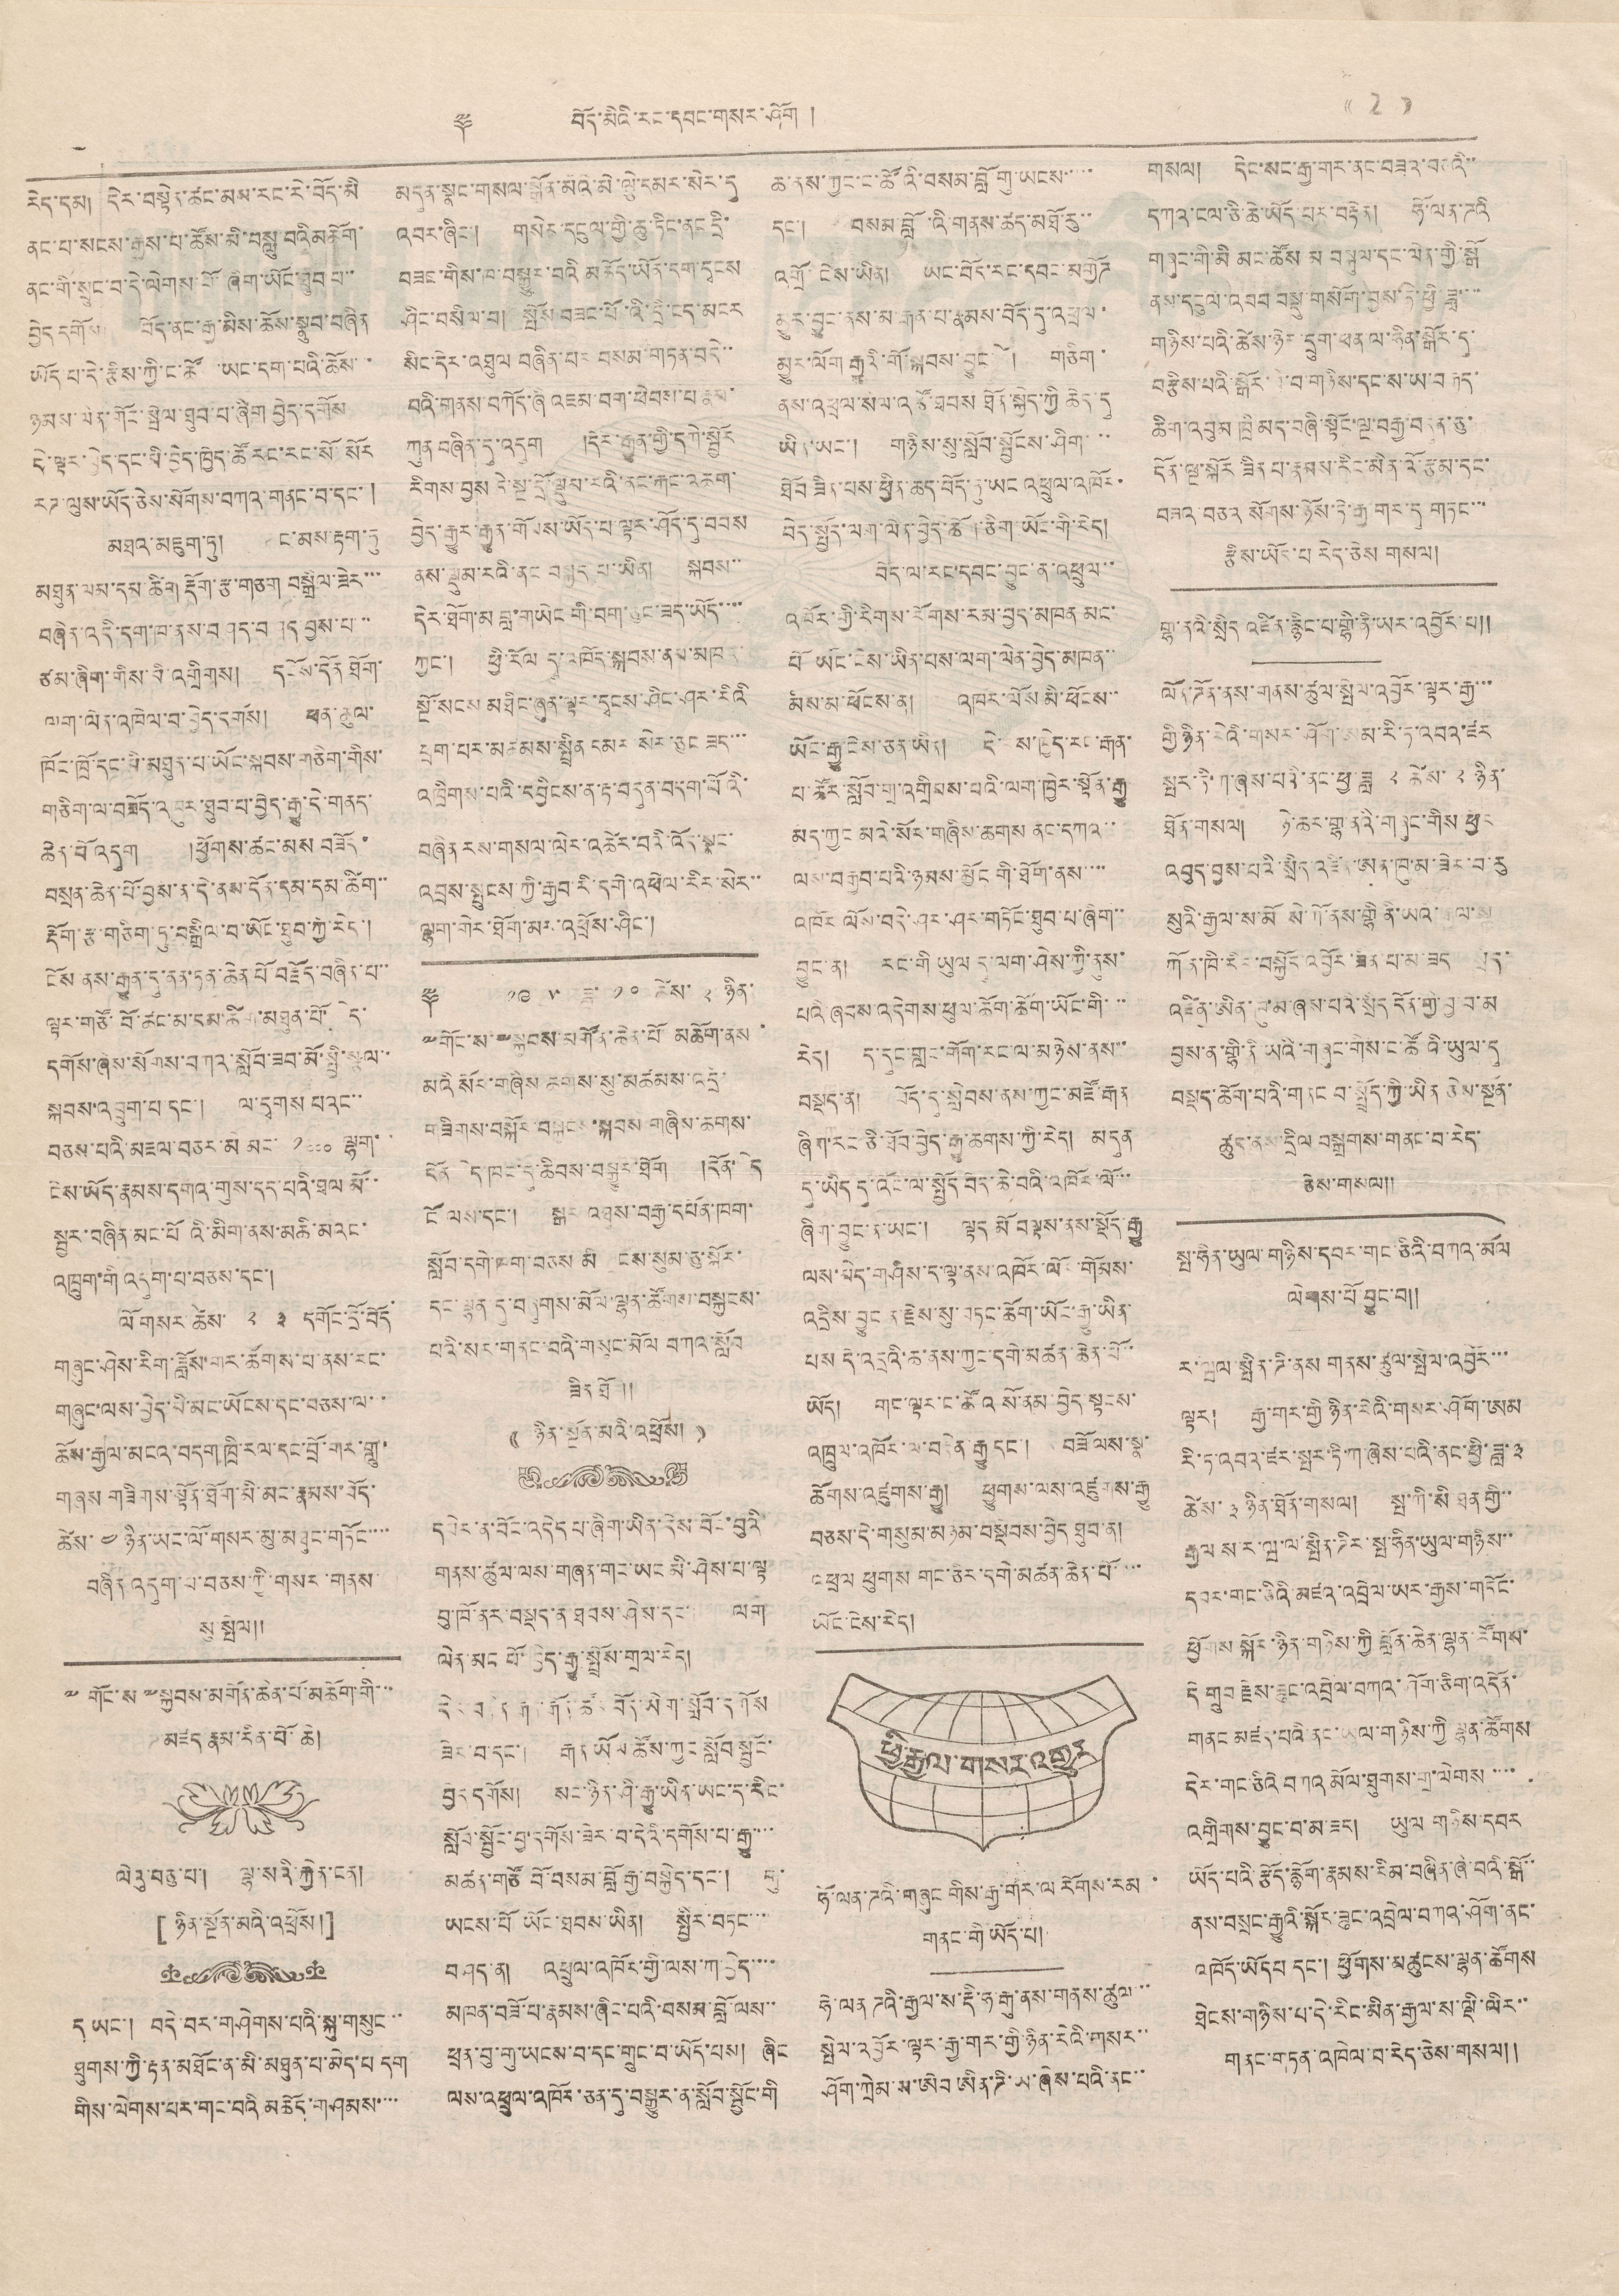༈ བོད་མིའི་རང་དབང་གསར་ཤོག ། (( 2 ))
རེད་དམ། དེར་བསྟེན་ཚང་མས་རང་རེ་བོད་མི
ནང་པ་སངས་རྒྱས་པ་ཚོས་མི་བསླུ་བའི མཆོག་
ནང་གི་སྲུང་བ་དེ་ལེགས་པོ་ཞིག་ཡོང་ཐུབ་པ་་
བྱེད དགོས བོད་ནང་རྒྱ་མིས་ཆོས་སྣུབ་བཞིན
ཡོད་པ་དེ་རྩིས་ཀྱི་ང་ཚོ ་ཡང་དག་པའི་ཆོས་་་
ཉམས་ལེན་གོང་སྤེལ་ཐུབ་པ་ཞིག་བྱེད་དགོས
དེ་ལྟར་བྱེད་དང་མི་བྱེད་ཁྱེད་ཚོ་རང་རང་སོ་སོར
རཌ་ལུས་ཡོད་ཅེས་སོགས་བཀའ་གནང་བ་དང་།
མཐའ་མཇུག་ཏུ། ང་མས་རྟག་ཏུ
མཐུན་ལམ་དམ་ཚིག་རྡོག་རྩ་གཅག བསྒྲིལ་ཟེར་་་
བཞིན་འདི་དག་ཁ་ནས་བཤད་བཤད་བྱས་པ་་་
ཙམ་ཞིག་གིས་མི་འགྲིགས། དངོས་དོན་ཐོག་
ལག་ལེན་འཁེལ་བ་བྱེད་དགོས། ཕན་ཚུལ་
ཁོང་ཁྲོ་དང་མི་མཐུན་པ་ཡོང་སྐབས་གཅིག་གིས་
གཅིག་ལ་བཟོད་འཁུར་ཐུབ་པ་བྱེད་རྒྱུ་དེ་གནད་
ཆེན་པོ་འདུག །ཕྱོགས་ཚང་མས བཟོད་
བསྲན་ཆེན་པོ་བྱས་ན་དེ་ནས་དོན་དམ་དམ་ཚིག་་
རྡོག་རྩ་གཅིག་ཏུ་བསྒྲིལ་བ་ཡོང་ཐུབ་ཀྱི་རེད་།
ངོས་ནས་རྒྱུན་དུ་ནན་ཏན་ཆེན་པོ་བརྗོད་བཞིན་པ་་
ལྟར་གཙོ་བོ་ཚང་མ་དམ་ཚིག་མཐུན་པོ་དེ་
དགོས་ཞེས་སོགས་བཀའ་སློབ་ཟབ་མོ་སྤྱི་སྩལ་་
སྐབས་འབྲུག་པ་དང་། ལ་དྭགས པའང་་
བཅས་པའི་མཀལ་བཅར་མི མང་ ༡༠༠༠ ལྷག་་
ངེས་ཡོད་རྣམས་དགའ་གུས་དད་པའི་ཐལ་མོ་་
སྦྱར་བཞིན་མང་པོཨའི་མིག་ནས་མཆི་མའང་
འཁྲུག་གི་འདུག་པ་བཅས་དང་།
ལོ་གསར་ཚེས་ ༢ ༣ དགོང་དྲོ་བོད
གཞུང་ཤེས་རིག་ཟློས་གར་ཚོགས་པ་ནས་རང་
གཞུང་ལས་བྱེད་མི་མང་ཡོངས་དང་བཅས་ལ་་
ཆོས་རྒྱལ་མངའ་བདག་ཁྲི་རལ་དང་བྲོ་གར་གླུ་
གཞས གཟིགས་སྟོན་ཐོག་མི་མང་རྣམས་བོད་
ཚེས་ ༤ ཉིན་ཡང་ལོ་གསར་མུ་མཐུང་གཏོང་་་་
བཞིན་འདུག་པ་བཅས་ཀྱི་གསར་གནས་
སུ་སྤེལ།།
༸གོང་ས་༸སྐྱབས་མགོན་ཆེན་པོ་མཆོག་གི་་་
མཛད་རྣམ་རིན་པོ་ཆེ།
ལེའུ་བཅུ་པ་། ལྷ་སའི་རྐྱེན་ངན།
[ ཉིན་སྔོན་མའི་འཕྲོས། ]
ད ཡང་། བདེ་བར་གཤེགས་པའི་སྐུ་གསུང་་
ཐུགས་ཀྱི་རྟན་མཐོང་ན་མི་མཐུན་པ་མེད་པ དག
གིས་ལེགས་པར་གང་བའི མཆོད་གཤམས་་་་
མདུན་སྣང་གསལ་སྒྲོན་མེའི་མེ་ལྕེ་དམར་སེར་དུ
འབར་ཞིང་། གསེར་དངུལ་གྱི་ཆུ་ཏིང་ནང་དྲི་
བཟང་གིས་ཁ་བསྒྱུར་བའི མཆོད་ཡོན་དག་དྭངས
ཤིང་བསིལ་བ། སྤོས བཟང་པོ་འི་དྲི་ངད་མངར
སིང་དེར་འཐུལ བཞིན་པར་བསམ་གཏན་བདེ་་
བའི་གནས་བཀོད་ཞི་འཇམ་བག་ཕེབས་པ་རྣམ་
ཀུན་བཞིན་དུ་འདུག །དེར་རྒྱུན་གྱི་དགེ་སྦྱོར
རིགས་བྱས དེ་སྔ་དྲོ་ལྡུམ་རའི་ནང་རྐང་འཆག་
བྱེད་རྒྱུར་རྒྱུན་གོམས་ཡོད་པ་ལྟར་ཤོད་དུ་བབས
ནས་སྡུམ་རའི་ནང་བསྐྱད་པ་ཡིན། སྐབས་་
དེར་ཐོག་མ་བླ་གཡེང་གི་བག་ཅུང་ཟད་ཡོད་་་་
ཀྱང་། ཕྱི་རོལ དུ་འཁོད་སྐབས་ནམ་མཁའ་
སྔོ་སངས་མཐིང་ཞུན་ལྟར་དྭངས་ཤིང་ཤར་རིའི
དྲག་པར་མཚམས་སྤྲིན དམར་སེར་ཅུང ཟད་་་
འཁྲིགས་པའི་དབྱིངས་ན་རྟ་བདུན་བདག་པོའི་
བཞིན རས་གསལ་ལེར་འཚེར་བའི་འོད་སྣང་
འབྲས་སྤུངས་ཀྱི་རྒྱབ་རི་དགེ་འཕེལ་རིར་སེར་་
ལྷག་གེར་ཐོག་མར་འཕྲོས་ཤིང་།
༈ ༡༩ ༥ ཟླ་ ༡༠ ཚེས་ ༢ ཉིན་
༸གོང་ས་༸སྐྱབས་མགོན་ཆེན་པོ་མཆོག་ནས
མའི་སོར་གཞིས ཆགས་སུ་མཚམས་འདྲི་
གཟིགས་བསྐོར་བསྐྱངས་སྐབས་གཞིས་ཆགས་
དོན་ ད་ཁང་དུ་ཆིབས་བསྒྱུར་ཐོག །དོན་ ད་
ངོ ལས་དང་། སྒར་བཐུས་བརྒྱ་དཔོན་ཁག་
སློབ་དགེ་ཁག་བཅས མི ངས་སུམ་ཅུ་སྐོར་
དང་ལྷན་དུ་བཞུགས་མོལ་ལྷན་ཚོགས་བསྐྱངས་
པའི་སར་གནང་བའི་གསུང་མོལ བཀའ་སློབ
ཟིན ཐོ །།
(( ཉིན་སྔོན་མའི་འཕྲོས། ))
དཔེར་ན་བོང་འདེད་པ་ཞིག་ཡིན་དེས་བོང་བུའི་
གནས་ཚུལ་ལས་གཞན་གང་ཡང མི་ཤེས་པ་ལྟ
བུ་ཁོ་ནར་བསྡད་ན ཐབས་ཤེས་དང་ ལག་
ལེན་མང པོ་བྱེད་རྒྱུ་སྤྲོད་གྲལ་རེད།
དེར བརྟེན་རྒན་རྒོན་ཚོར་བོད་ཡིག་སློབ་དགོས
ཟེར་བ་དང་། རྒན ཡོལ ཚོས་ཀྱང སློབ་སྦྱོང་
བྱེད་དགོས། སང་ཉིན་ཤི་རྒྱུ་ཡིན་ཡང་ད་རིང་
སློབ་སྦྱོང་བྱ་དགོས་ཟེར་བ་དེའི་དགོས་པ་རྒྱུ་་་་་
མཚན་གཙོ་བོ་བསམ་བློ་རྒྱ་བསྐྱེད་དང་། གུ་
ཡངས་པོ ཡོང་ཐབས་ཡིན། སྤྱིར་བཏང་་་
བཤད་ན། འཕྲུལ་འཁོར་གྱི་ལས་ཀ་བྱེད་་་་
མཁན་བཟོ་པ་རྣམས་ཞིང་པའི་བསམ་བློ་ལས་་
ཕྲན་བུ་གུ་ཡངས་བ་དང་གྲུང་བ་ཡོད་པས། ཞིང
ལས་འཕྲུལ་འཁོར་ཅན་དུ་བསྒྱུར་ན་སློབ་སྦྱོང་གི
ཆ་ནས་ཀྱང་ང་ཚོའི་བསམ་བློ་གུ་ཡངས་་་་་
དང་། བསམ་བློ ་འི་གནས་ཚད་མཐོ་རུ་་
འགྲོ་ངེས་ཡིན། ཡང་བོད་རང་དབང་མགྱོཌ
མྱུར་བྱུང་ནས་མ་རྒར་པ་རྣམས་བོད་དུ་འཕྲལ་
མྱུར་ལོག་རྒྱུའི་གོ་སྐབས་བྱུང་ཚེ། གཅིག་
ནས་འཕྲལ་སིལ་འཚོ་ཐབས་ཐོན་སྐྱེད་ཀྱི ཆེད་དུ
ཡིན་ཡང་། གཉིས་སུ་སློབ་སྦྱོངས་ཤིག་་་་
ཐོབ ཟིན་པས་ཕྱིན་ཆད་བོད་ཏུ་ཡང འཕྲུལ་འཁོར་
བདེ་སྤྱོད་ལག་ལེན་བྱེད་ཆོག་ཅིག་ཡོང་གི་རེད།
བོད་ལ་རང་དབང་བྱུང་ན་འཕྲུལ་་
འཁོར་གྱི་རིགས་རོགས་རམ་བྱེད་མཁན མང་
པོ ཡོང་ངེས་ཡིན་པས་ལག་ལེན་བྱེད་མཁན་་
མིས་མ་ཕོངས་ན། འཁོར་ལོས མི་ཕོངས་་
ཡོང་རྒྱུ་ངེས་ཅན་ཡིན། དེ་ནས་ཁྱེད་རང་རྒན་
པ་ཚོར་སློབ་གྲ་འགྲིབས་པའི་ལག་ཁྱེར་སྟོན་རྒྱུ
མེད་ཀྱང མའི་སོར་གཞིས་ཆགས ནང་དཀའ་་
ལས་བརྒྱབ་པའི་ཉམས་མྱོང་གི་ཐོག་ནས་་་་
འཁོར ལོས་བདེ་ཤར་ཤར་གཏོང་ཐུབ་པ་ཞིག་་
བྱུང་ན། རང་གི ཡུལ དུ་ལག་ཤེས་ཀྱི་ནུས་
པའི་ཞབས་འདེབས་ཕུལ་ཆོག་ཆོག་ཡོང་གི་་་
རེད། ད་དུང་གླང་གོག་རང་ལ་མཉེས་ནས་་
བསྡད་ན། བོད་དུ་སླེབས་ནས་ཀྱང་མཛོ་རྒན
ཞིག་རང་ཅི་ཐོབ་བྱེད་རྒྱུ་ཆགས་ཀྱི་རེད། མདུན
དུ་ཡིད དུ་འོང་ལ་སྤྱོད་བེད་ཆེ་བའི་འཁོར་ལོ་་་
ཞིག་བྱུང་ན་ཡང་། ལྟད་མོ བལྟས་ནས་སྡོད་རྒྱུ
ལས་མེད་གཤིས་ད་ལྟ་ནས་འཁོར་ལོ ་གོམས་
འདྲིས་བྱུང ན་རྗེས་སུ་བཏང་ཆོག་ཡོང་རྒྱུ་ཡིན་
པས་དེ་འདྲའི་ཆ་ནས་ཀྱང་དགེ་མཚན་ཆེན་པོ་་
ཡོད། གང་ལྟར་ང་ཚོའི སོ་ནམ་བྱེད་སྟངས་
འཁྲུལ་འཁོར་ལ་བརྟེན་རྒྱུ་དང་། བཟོ ལས་སྣ་
ཆོགས་འཛུགས་རྒྱུ། ཕྱུགས་ལས་འཛུགས་རྒྱུ
བཅས་དེ་གསུམ་མཉམ་བསྡེབས་བྱེད་ཐུབ་ན།
འཕྲལ ཕུགས གང་ཅིར་དགེ་མཚན་ཆེན་པོ་་་་
ཡོང་ངེས་རེད།
ཕྱི་རྒྱལ་གསར་འགྱུར
ཧོ་ལན་ཌའི་གཞུང་གིས་རྒྱ་གར་ལ་རོགས་རམ ་
གནང་གི ཡོད་པ།
ཧེ་ལན ཌའི་རྒྱལ་ས་རྡི་ཧ་རྒུ་ནས་གནས་ཚུལ་་་
སྤེལ་འབྱོར་ལྟར་རྒྱ་གར་གྱི་ཉིན་རེའི་གསར་་
ཤོག་ཀྲེམ་ས་ཨེབ་ཨིན་ཌི་ཡ་ཞེས་པའི་ནང་་
གསལ། དེང་སང་རྒྱ་གར་ནང་བཟའ་བཅའི་་
དཀའ་ངལ་ཅི་ཆེ་ཡོད་པར་བརྟེན། ཧོ་ལན་ཌའི
གཞུང་གི་མི མང་ཚོས མ བསྐུལ་དང་ལེན་གྱི་སྒོ
ནས་དངུལ་འབབ བསྡུ་གསོག་བྱས་ཏེ་ཕྱི་ཟླ་་་་
གཉིས་པའི་ཚེས་ཉེར་དྲུག་ཕན ལ་ཧིན་སྒོར་དུ་
བརྩིས་པའི་སྒོར་ ་བ་གཉིས་དང་ས་ཡ་བརྒྱད་
ཆིག་འབུམ ཁྲི མད་བཞི་སྟོང་ལྔ་བརྒྱ་བདུན་ཅུ་
དོན་ལྔ་སྐོར་ཟིན་པ་རྣམས་རིང་མིན་འོ་རྩམ་དང་
བཟའ་བཅའ སོགས་ཉོས་ཏེ་རྒྱ་གར་དུ གཏང་་་
རྩིས་ཡོད་པ རེད་ཅེས གསལ།
གྷ་ནའི་སྲིད འཛིན་རྙིང་པ་གྷི་ནི་ཡར་འབྱོར་པ།།
ལོན་ཌོན་ནས་གནས་ཚུལ་སྤེལ་འབྱོར་ལྟར་རྒྱ་་་
གྱི་ཉིན་རེའི་གསར་ཤོག་ཨམ་རི་ཏ་འབའ་ཛར
སྤར་ཏི་ཀ་ཞེས་པའི་ནང་ཕྱི་ཟླ ༢ ཚེས་ ༢ ཉིན་
ཐོན་གསལ། ཉེ་ཆར་གྷ་ནའི་གཞུང་གིས་ཕྱིར
འབུད་བྱས་པའི་སྲིད་འཛིན་ཨན་ཁུ་མ་ཟེར་བ་རུ
སུའི་རྒྱལ་ས་མོ སེ་ཀོ་ནས་གྷི ནི་ཡའི་རྒྱལ་ས
ཀོན་ཁི་རིང་བསྐྱོད་འབྱོར་ཟིན་པ་མ་ཟད སྲིད་
འཛིན་ཨིན་ཁུ་མ་ཞེས་པའི་སྲིད དོན་གྱི་བྱ་བ་མ
བྱས་ན་གྷི་ནི་ཡའི་གཞུང་གིས་ང་ཚོའི་ཡུལ་དུ
བསྡད་ཆོག་པའི་གནང བ་སྤྲོད་ཀྱི་ཡིན ཅེས་སྔོན་
ཚུད་ནས་དྲིལ བསྒྲགས་གནང་བ་རེད་
ཅེས་གསལ།།
སྤ་ཧིན་ཡུལ་གཉིས་དབར་གང་ཅིའི་བཀའ་མོལ
ལེགས་པོ བྱུང་བ།།
ར་ཝལ་སྤིན་ཌི་ནས གནས་ཚུལ་སྤེལ་འབྱོར་་་
ལྟར། རྒྱ་གར་གྱི ཉིན་རེའི་གསར་ཤོག་ཨམ
རི་ཏ་འབའ་ཛར་སྤར་ཏི་ཀ་ཞེས་པའི་ནང་ཕྱི་ཟླ་ ༣
ཚེས་ ༣ ཉིན་ཐོན་གསལ། སྤ་ཀི་སི་ཐན་གྱི་་
རྒྱལ ས་ར་ཝ་ལ་སྤིན་ཌིར་སྤ་ཧིན་ཡུལ་གཉིས་་
དབར་གང་ཅིའི་མཛའ་འབྲེལ་ཡར་རྒྱས་གཏོང་
ཕྱོགས་སྐོར་ཉིན་གཉིས་ཀྱི བློན་ཆེན་ལྷན་ཚོགས་
དེ གྲུབ་རྗེས་ཟུང་འབྲེལ་བཀའ་ཤོག་ཅིག་འདོན་
གནང་མཛད་པའི་ནང་ཡུལ་གཉིས་ཀྱི་ལྷན་ཚོགས
དེར་གང་ཅིའི་བཀའ་མོལ་ཐུགས་གྲ་ལེགས་་་་
འགྲིགས་བྱུང་བ་མ་ཟད། ཡུལ གཉིས་དབར
ཡོད་པའི་རྩོད་རྙོག་རྣམས་རིམ་བཞིན་ཞི་བའི་སྒོ་་
ནས་བསྲང་རྒྱུའི་སྐོར་ཟུང་འབྲེལ་བཀའ་ཤོག་ནང་
འཁོད་ཡོདཔ དང་། ཕྱོགས་མཚུངས་ལྷན་ཚོགས
ཐེངས་གཉིས་པ་དེ་རིང་མིན་རྒྱལ་ས་ལྡི་ལིར་་
གནང་གཏན་འཁེལ་བ་རེད་ཅེས་གསལ།།
